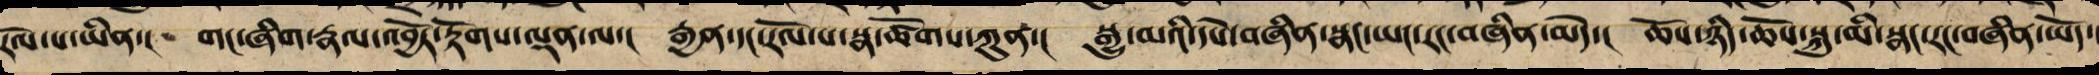རོལ་པ་ཡིན་། གང་ཞིག་རྣལ་འབྱོར་རྟོགས་ལྡན་ལ་། རྒྱན་དང་རོལ་པ་སྣ་ཚོགས་ཀུན་། སྒྱུ་མའི་དཔེ་བཞིན་སྣང་ཡང་རང་བཞིན་མེད་། ཆོས་ཉིད་ཆོས་སྐུ་མི་སྣང་རང་བཞིན་ཡོད་།
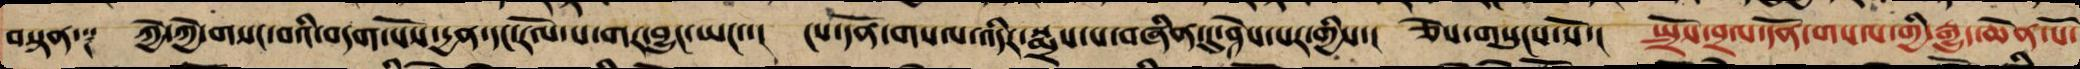བསྟན་༑ ཀྱེ་ཀྱེ་གསང་བའི་བདག་པོས་དྱན་དང་རོལ་པ་གར་བྱུང་ཡང་་། ངས་དོན་གསལ་འདིར་སྨྲས་པ་བཞིན་དུ་ཤེས་པར་གྱིས་། ཅེས་གསུངས་སོ་། སྤྲོས་བྲལ་དོན་གསལ་གྱི་རྒྱུད་ཆེན་པོ་
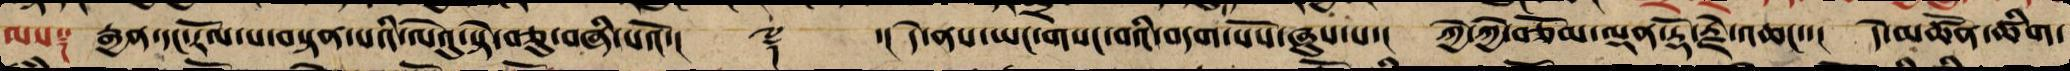ལས༑ རྒྱན་དང་རོལ་པ་བསྟན་པའི་ལེའུ་སྟེ་བཅུ་བཞི་པའོ་།། ༈ ་། དེ་ནས་ཡང་གསང་བའི་བདག་པོས་ཞུས་པ་། ཀྱེ་ཀྱེ་བཅོམ་ལྡན་རྡོ་རྗེ་འཆང་་། དེས་མཚོན་ཚིག་
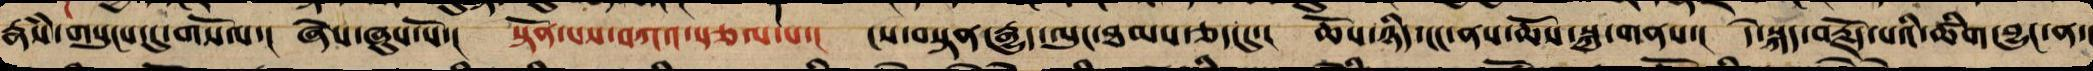རྣཾས་གསུངས་དུ་གསོལ་། ཞེས་ཞུས་སོ་། སྟོན་པས་བཀའ་སྩལ་པ་། ངས་བསྟན་རྒྱུད་ལུང་ཐམས་ཅད་དུ་། ཆོས་ཉིད་ངང་ནས་ཆོས་སྐུ་གནས་། དེ་སྐད་བརྗོད་པའི་ཚིག་བྱུང་ན་།
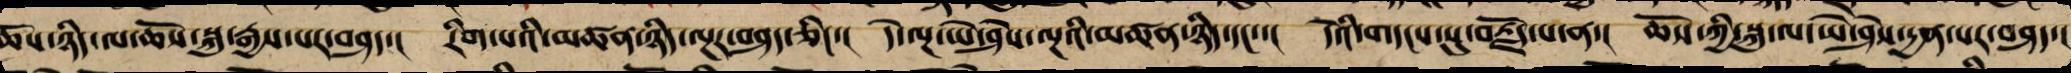ཆོས་ཉིད་ལ་ཆོས་སྐུ་རྒྱས་པར་བཤད་། རིག་པའི་མཚན་ཉིད་ལྔར་བཤད་ཅིང་། དེ་ལྔ་ཡེ་ཤེས་ལྔའི་མཚན་ཉིད་དང་་། དེ་ཡི་གདངས་སུ་བརྗོད་པ་ན་། ཆོས་ཀྱི་སྐུ་ལ་ཡེ་ཤེས་དྱན་པར་བཤད་། །
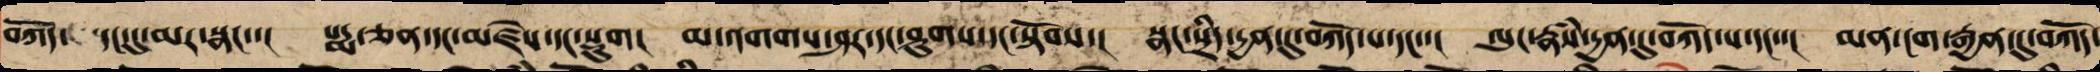བཀོད་ དང་དུ་མར་སྣང་་། པདྨ་ཅན་དང་མཛེས་དང་སྡུག། མ་འགགས་ཤར་དང་ཐུགས་དང་སྟོབས་། སྣང་སྲིད་དྱན་དུ་བཀོད་པ་དང་་། ལུང་རྣཾས་རྒྱན་དུ་བཀོད་
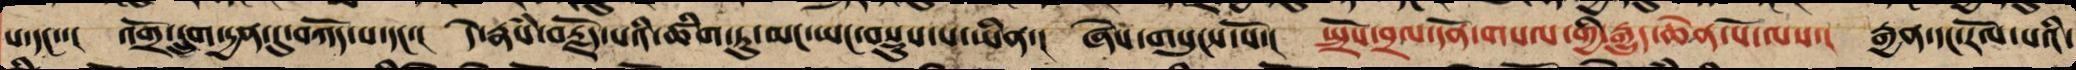པ་དང་་། འགྲོ་དྲུག་དྱན་དུ་བཀོད་པ་དང་། དེ་རྣཾས་བརྗོད་པའི་ཚིག་ཏུ་མང་ཡང་བསྡུས་པ་ཡིན་། ཞེས་གསུངས་སོ་། སྤྲོས་བྲལ་དོན་གསལ་གྱི་རྒྱུད་ཆེན་པོ་ལས་། རྒྱན་དང་རོལ་པའི་
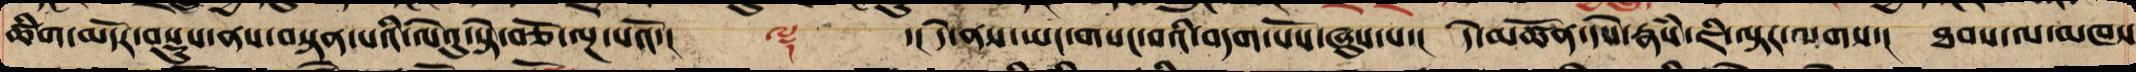ཚིག་མདོར་བསྡུས་ནས་བསྟན་པའི་ལེའུ་སྟེ་བཅོ་ལྔ་པའོ་།། ༈ ་།། དེ་ནས་ཡང་གསང་བའི་བདག་པོས་ཞུས་པ་། དེ་མཚོན་དཔེ་རྣཾས་ཇི་ལྟར་ལགས་། ཐབས་ལ་མཁས
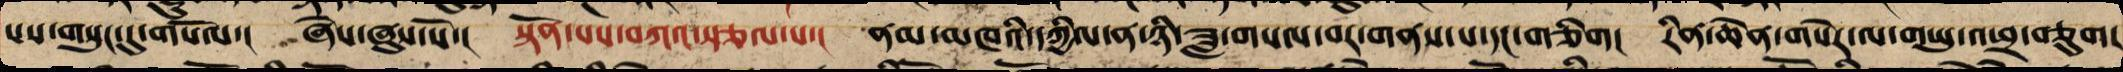པས་གསུང་དུ་གསོལ་། ཞེས་ཞུས་སོ་། སྟོན་པས་བཀའ་སྩལ་པ་། ནམ་མཁའི་དཀྱིལ་ན་ཉི་ཟླ་གསལ་བར་གནས་པ་དང་གཅིག། རིན་ཆེན་གསེར་ལ་གཡུའི་ཕྲ་བཅུག་
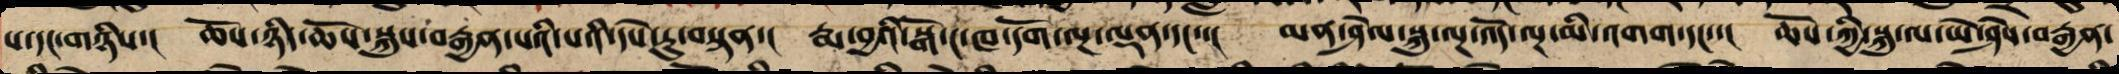པ་དང་གཉིས་། ཆོས་ཉིད་ཆོས་སྐུས་བརྒྱན་པའི་པའི་དཔེ་རུ་བསྟན་། རྨ་བྱའི་སྒོ་ང་ཁ་དོག་ལྔ་ལྡན་དང་་། མན་ཤེལ་སྐུ་ལྔ་འོད་ལྔ་མི་འགག་དང་། ཆོས་ཀྱི་སྐུ་ལ་ཡེ་ཤེས་བརྒྱན་
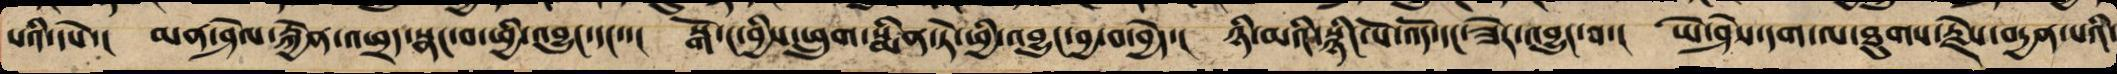པའི་དཔེ་། མན་ཤེལ་རྐྱེན་འཕྲད་སྣང་བ་ཕྱི་འབྱུང་དང་་། སྒོ་ང་བྱིས་ཕྲུག་སྨིན་ཏེ་ཕྱི་འབྱུང་བྱ་བ་བྱེད་། ཉི་མའི་སྙིང་པོ་འོད་དང་ཟེར་འབྱུང་བ་། ཡེ་ཤེས་དག་ལ་ཐུགས་རྗེས་བདྱན་པའི་
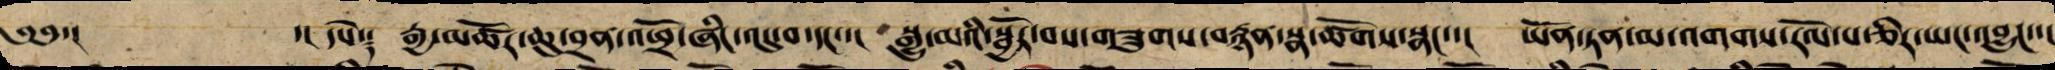༄༅་། ་། དཔེ༑ རྒྱ་མཚོར་ཆུ་བྲན་འཕྲོ་ཞིང་འདུ་བ་དང་་། སྒྱུ་མའི་སྦྱོར་བས་གཟུགས་བརྙན་སྣ་ཚོགས་སྣང་་། ཡོན་ཏན་མ་འགགས་རོལ་པ་ཅིར་ཡང་འབྱུང་་།
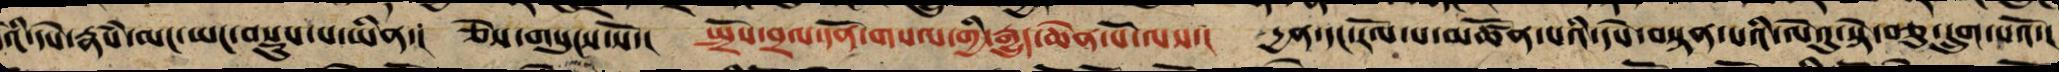འི་དཔེ་རྣཾས་མང་ཡང་བསྡུས་པ་ཡིན་། ཅེས་གསུངས་སོ་། སྤྲོས་བྲལ་དོན་གསལ་གྱི་རྒྱུད་ཆེན་པོ་ལས་། དྱན་དང་རོལ་པ་མཚོན་པའི་དཔེ་བསྟན་པའི་ལེའུ་སྟེ་བཅུ་དྲུག་པའོ་།།
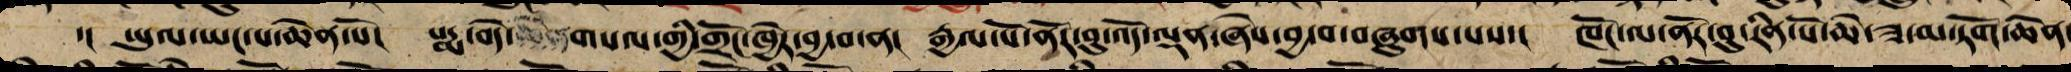་། ཡུལ་ཡང་པ་ཆེན་པོ་ པདྨ་བདེ་ཆེན་གསལ་གྱི་གྲོང་ཁྱེར་བྱ་བ་ན། རྒྱལ་པོ་ནོར་བུ་འོད་ལྡན་ཞེས་བྱ་བ་བཞུགས་པས་། ཁོང་ལ་ནོར་བུ་རིན་པོ་ཆེ་ཟ་མ་ཏོག་ཆེན་
